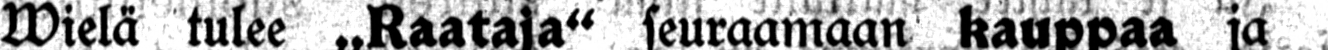tämme ja kaswatus kysymyksiä.
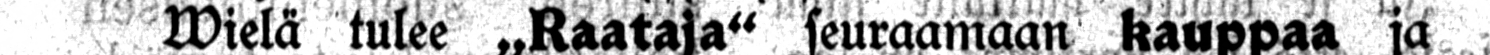Wielä tulee „Raataja" seuraamaan kauppaa ja
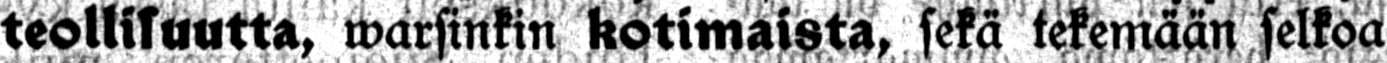teollisuutta, warsinkin kotimaista, sekä tekemään selkoa
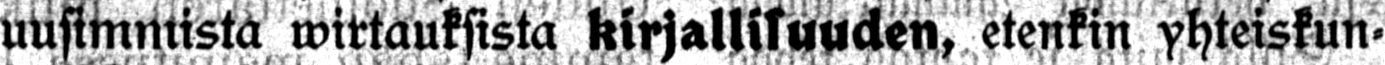uusimmista wirtauksista kirjallisuuden, etenkin yhteiskun-
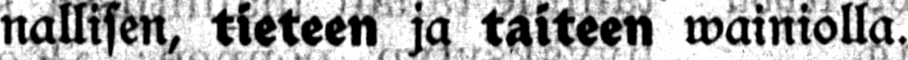nallisen, tieteen ja taiteen wainiolla.
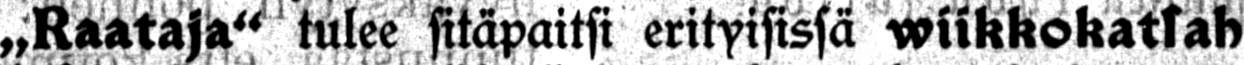„Raataja" tulee sitäpaitsi erityisissä wiikkokatsah-
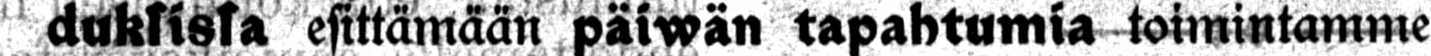duksisa esittämään päiwän tapahtumia toimintamme
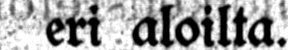eri aloilta.
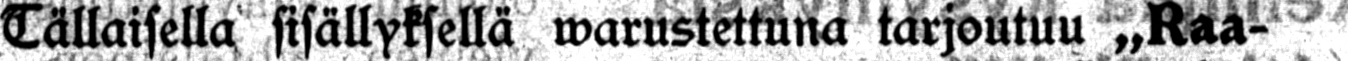Tällaisella sisällyksellä warustettuna tarjoutuu „Raa-
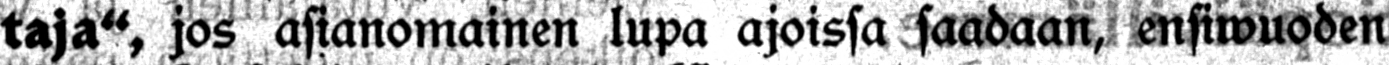taja", jos asianomainen lupa ajoissa saadaan, ensiwuoden
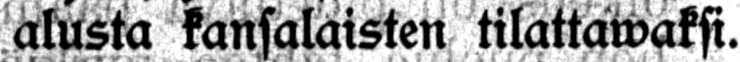alusta kansalaisten tilattawaksi.
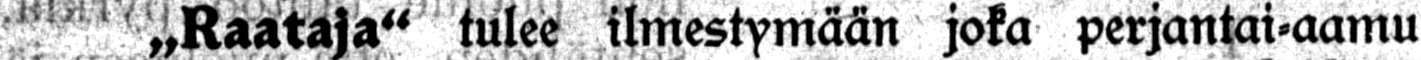„Raataja" tulee ilmestymään joka perjantai-aamu
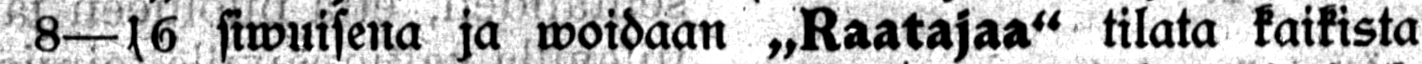8—16 siwuisena ja woidaan „Raatajaa" tilata kaikista
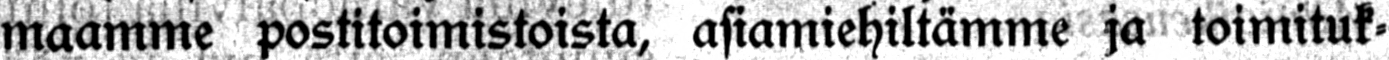maamme postitoimistoista, asiamiehiltämme ja toimituk-
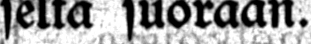selta suoraan.
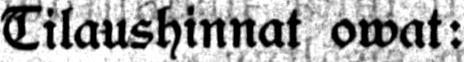Tilaushinnat owat:
